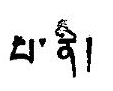པ་ནི།
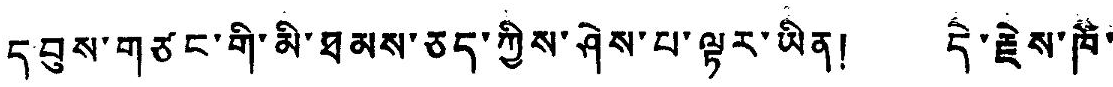དབུས་གཙང་གི་མི་ཐམས་ཅད་ཀྱིས་ཤེས་པ་ལྟར་ཡིན། དེ་རྗེས་ཁོ་
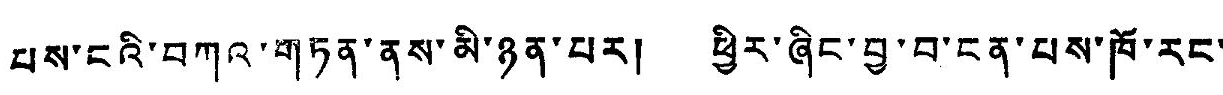པས་ངའི་བཀའ་གཏན་ནས་མི་ཉན་པར། ཕྱིར་ཞིང་བྱ་བ་ངན་པས་ཁོ་རང་
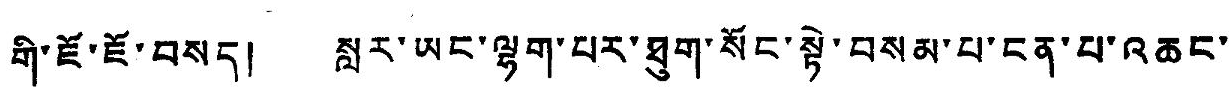གི་ཇོ་ཇོ་བསད། སླར་ཡང་ལྷག་པར་ཐུག་སོང་སྟེ་བསམ་པ་ངན་པ་འཆང་
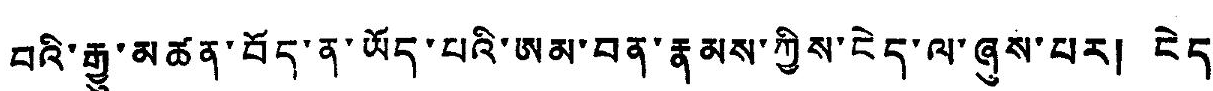བའི་རྒྱུ་མཚན་བོད་ན་ཡོད་པའི་ཨམ་བན་རྣམས་ཀྱིས་ངེད་ལ་ཞུས་པར། ངེད་
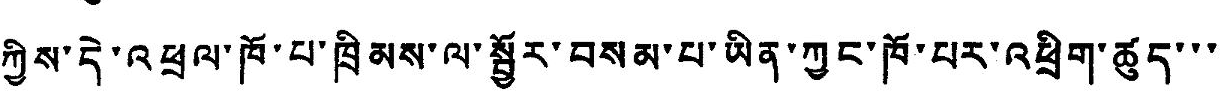ཀྱིས་དེ་འཕྲལ་ཁོ་པ་ཁྲིམས་ལ་སྦྱོར་བསམ་པ་ཡིན་ཀྱང་ཁོ་པར་འཕྲིག་ཚུད་་་
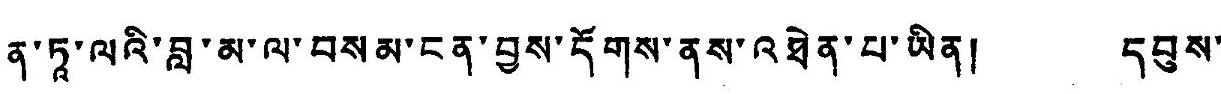ན་ཏའ་ལའི་བླ་མ་ལ་བསམ་ངན་བྱས་དོགས་ནས་འཐེན་པ་ཡིན། དབུས་
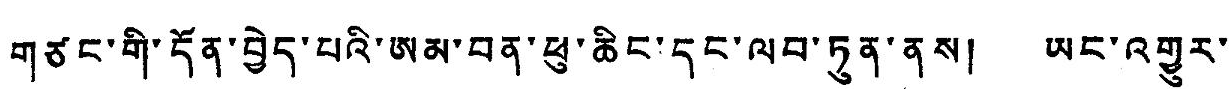གཙང་གི་དོན་བྱེད་པའི་ཨམ་བན་ཕུ་ཆིང་དང་ལབ་ཏུན་ནས། ཡང་འགྱུར་
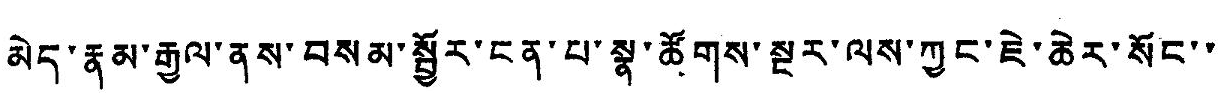མེད་རྣམ་རྒྱལ་ནས་བསམ་སྦྱོར་ངན་པ་སྣ་ཚོགས་སྔར་ལས་ཀྱང་ཇེ་ཆེར་སོང་་
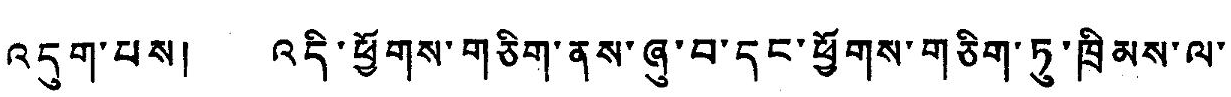འདུག་པས། འདི་ཕྱོགས་གཅིག་ནས་ཞུ་བ་དང་ཕྱོགས་གཅིག་ཏུ་ཁྲིམས་ལ་
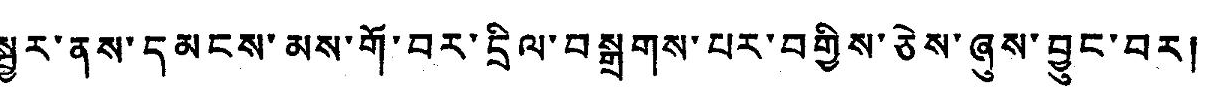སྦྱར་ནས་དམངས་མས་གོ་བར་དྲིལ་བསྒྲགས་པར་བགྱིས་ཅེས་ཞུས་བྱུང་བར།
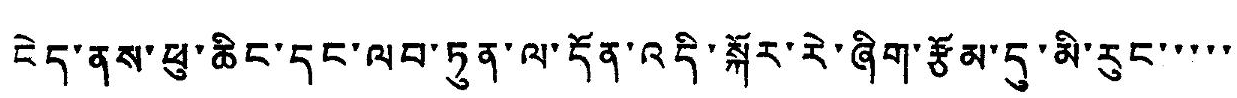ངེད་ནས་ཕུ་ཆིང་དང་ལབ་ཏུན་ལ་དོན་འདི་སྐོར་རེ་ཞིག་རྩོམ་དུ་མི་རུང་་་་་
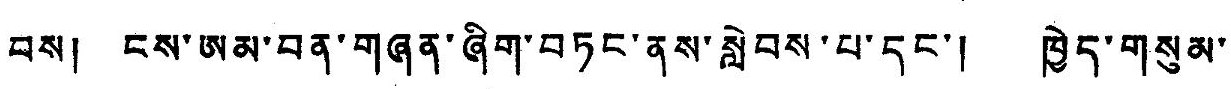བས། ངས་མ་བན་གཞན་ཞིག་བཏང་ནས་སླེབས་པ་དང་། ཁྱེད་གསུམ་
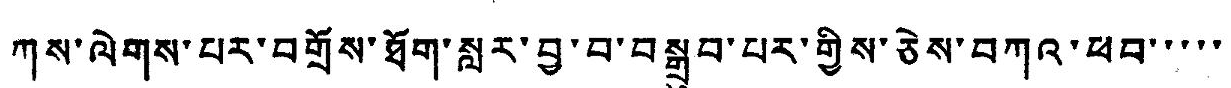ཀས་ལེགས་པར་བགྲོས་ཐོག་སླར་བྱ་བ་བསྒྲུབ་པར་གྱིས་ཅེས་བཀའ་ཕབ་་་་་
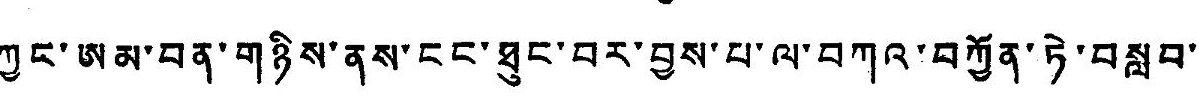ཀྱང་ཨམ་བན་གཉིས་ནས་ངང་ཐུང་བར་བྱས་པ་ལ་བཀའ་བཀྱོན་ཏེ་བསླབ་
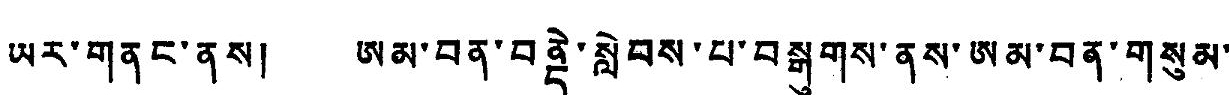ཡར་གནང་ནས། ཨམ་བན་བནདེ་སླེབས་པ་བསྒུགས་ནས་ཨམ་བན་གསུམ་
